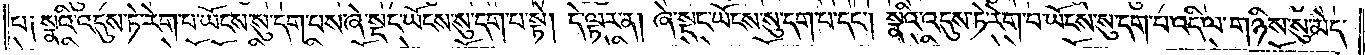པ༑ སྣའི་འདུས་ཏེ་རེག་པ་ཡོངས་སུ་དག་པས་ཞེ་སྡང་ཡོངས་སུ་དག་པ་སྟེ། དེ་ལྟར་ན། ཞེ་སྡང་ཡོངས་སུ་དག་པ་དང༌། སྣའི་འདུས་ཏེ་རེག་པ་ཡོངས་སུ་དག་པ་འདི་ལ་གཉིས་སུ་མེད་
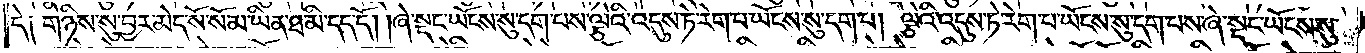དེ༑ གཉིས་སུ་བྱར་མེད་སོ་སོ་མ་ཡིན་ཐ་མི་དད་དོ། །ཞེ་སྡང་ཡོངས་སུ་དག་པས་ལྕེའི་འདུས་ཏེ་རེག་པ་ཡོངས་སུ་དག་པ། ལྕེའི་འདུས་ཏེ་རེག་པ་ཡོངས་སུ་དག་པས་ཞེ་སྡང་ཡོངས་སུ་
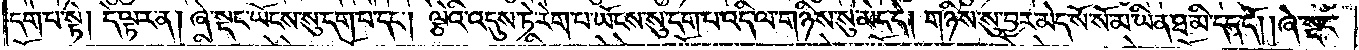དག་པ་སྟེ། དེ་ལྟར་ན། ཞེ་སྡང་ཡོངས་སུ་དག་པ་དང༌། ལྕེའི་འདུས་ཏེ་རེག་པ་ཡོངས་སུ་དག་པ་འདི་ལ་གཉིས་སུ་མེད་དེ། གཉིས་སུ་བྱར་མེད་སོ་སོ་མ་ཡིན་ཐ་མི་དད་དོ། །ཞེ་སྡང་
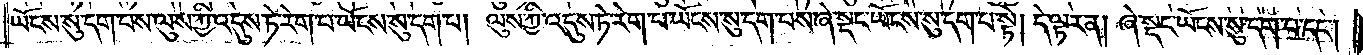ཡོངས་སུ་དག་པས་ལུས་ཀྱི་འདུས་ཏེ་རེག་པ་ཡོངས་སུ་དག་པ། ལུས་ཀྱི་འདུས་ཏེ་རེག་པ་ཡོངས་སུ་དག་པས་ཞེ་སྡང་ཡོངས་སུ་དག་པ་སྟེ། དེ་ལྟར་ན། ཞེ་སྡང་ཡོངས་སུ་དག་པ་དང༌།
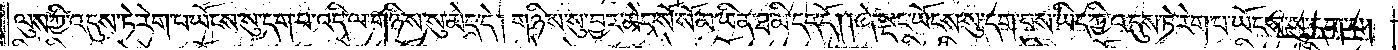ལུས་ཀྱི་འདུས་ཏེ་རེག་པ་ཡོངས་སུ་དག་པ་འདི་ལ་གཉིས་སུ་མེད་དེ། གཉིས་སུ་བྱར་མེད་སོ་སོ་མ་ཡིན་ཐ་མི་དད་དོ། །ཞེ་སྡང་ཡོངས་སུ་དག་པས་ཡིད་ཀྱི་འདུས་ཏེ་རེག་པ་ཡོངས་སུ་དག་པ།
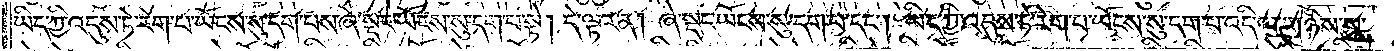ཡིད་ཀྱི་འདུས་ཏེ་རེག་པ་ཡོངས་སུ་དག་པས་ཞེ་སྡང་ཡོངས་སུ་དག་པ་སྟེ། དེ་ལྟར་ན། ཞེ་སྡང་ཡོངས་སུ་དག་པ་དང༌། ཡིད་ཀྱི་འདུས་ཏེ་རེག་པ་ཡོངས་སུ་དག་པ་འདི་ལ་གཉིས་སུ་
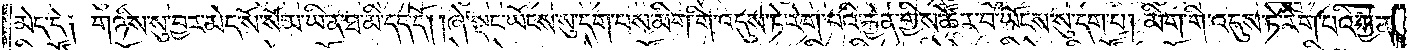མེད་དེ། གཉིས་སུ་བྱར་མེད་སོ་སོ་མ་ཡིན་ཐ་མི་དད་དོ། །ཞེ་སྡང་ཡོངས་སུ་དག་པས་མིག་གི་འདུས་ཏེ་རེག་པའི་རྐྱེན་གྱིས་ཚོར་བ་ཡོངས་སུ་དག་པ། མིག་གི་འདུས་ཏེ་རེག་པའི་རྐྱེན་
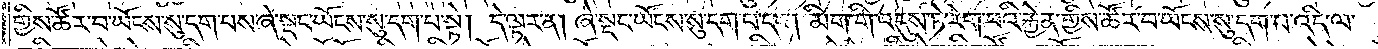གྱིས་ཚོར་བ་ཡོངས་སུ་དག་པས་ཞེ་སྡང་ཡོངས་སུ་དག་པ་སྟེ། དེ་ལྟར་ན། ཞེ་སྡང་ཡོངས་སུ་དག་པ་དང༌། མིག་གི་འདུས་ཏེ་རེག་པའི་རྐྱེན་གྱིས་ཚོར་བ་ཡོངས་སུ་དག་པ་འདི་ལ་
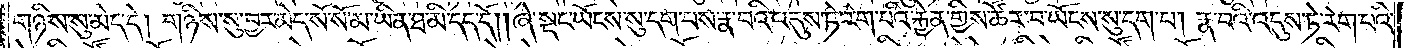གཉིས་སུ་མེད་དེ། གཉིས་སུ་བྱར་མེད་སོ་སོ་མ་ཡིན་ཐ་མི་དད་དོ། །ཞེ་སྡང་ཡོངས་སུ་དག་པས་རྣ་བའི་འདུས་ཏེ་རེག་པའི་རྐྱེན་གྱིས་ཚོར་བ་ཡོངས་སུ་དག་པ། རྣ་བའི་འདུས་ཏེ་རེག་པའི་
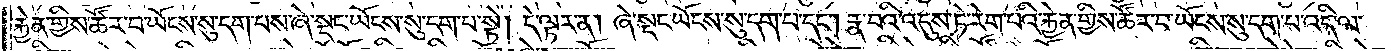རྐྱེན་གྱིས་ཚོར་བ་ཡོངས་སུ་དག་པས་ཞེ་སྡང་ཡོངས་སུ་དག་པ་སྟེ། དེ་ལྟར་ན། ཞེ་སྡང་ཡོངས་སུ་དག་པ་དང༌། རྣ་བའི་འདུས་ཏེ་རེག་རྐྱེན་གྱིས་ཚོར་བ་ཡོངས་སུ་དག་པ་འདི་ལ་
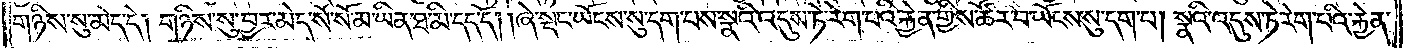གཉིས་སུ་མེད་དེ། གཉིས་སུ་བྱར་མེད་སོ་སོ་མ་ཡིན་ཐ་མི་དད་དོ། །ཞེ་སྡང་ཡོངས་སུ་དག་པས་སྣའི་འདུས་ཏེ་རེག་པའི་རྐྱེན་གྱིས་ཚོར་བ་ཡོངས་སུ་དག་པ། སྣའི་འདུས་ཏེ་རེག་པའི་རྐྱེན་
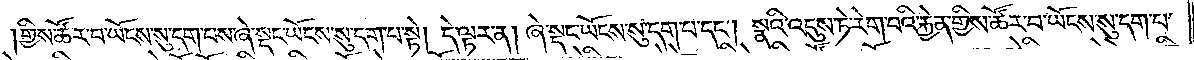གྱིས་ཚོར་བ་ཡོངས་སུ་དག་པས་ཞེ་སྡང་ཡོངས་སུ་དག་པ་སྟེ། དེ་ལྟར་ན། ཞེ་སྡང་ཡོངས་སུ་དག་པ་དང༌། སྣའི་འདུས་ཏེ་རེག་པའི་རྐྱེན་གྱིས་ཚོར་བ་ཡོངས་སུ་དག་པ་
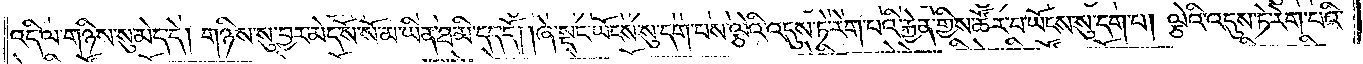འདི་ལ་གཉིས་སུ་མེད་དེ། གཉིས་སུ་བྱར་མེད་སོ་སོ་མ་ཡིན་ཐ་མི་དད་དོ། །ཞེ་སྡང་ཡོངས་སུ་དག་པས་ལྕེའི་འདུས་ཏེ་རེག་པའི་རྐྱེན་གྱིས་ཚོར་བ་ཡོངས་སུ་དག་པ། ལྕེའི་འདུས་ཏེ་རེག་པའི་
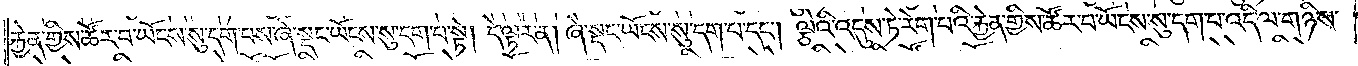རྐྱེན་གྱིས་ཚོར་བ་ཡོངས་སུ་དག་པས་ཞེ་སྡང་ཡོངས་སུ་དག་པ་སྟེ། དེ་ལྟར་ན། ཞེ་སྡང་ཡོངས་སུ་དག་པ་དང༌། ལྕེའི་འདུས་ཏེ་རེག་པའི་རྐྱེན་གྱིས་ཚོར་བ་ཡོངས་སུ་དག་པ་འདི་ལ་གཉིས་
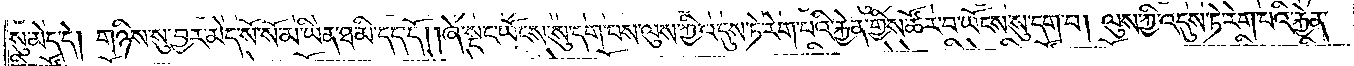སུ་མེད་དེ། གཉིས་སུ་བྱར་མེད་སོ་སོ་མ་ཡིན་ཐ་མི་དད་དོ། །ཞེ་སྡང་ཡོངས་སུ་དག་པས་ལུས་ཀྱི་འདུས་ཏེ་རེག་པའི་རྐྱེན་གྱིས་ཚོར་བ་ཡོངས་སུ་དག་པ། ལུས་ཀྱི་འདུས་ཏེ་རེག་པའི་རྐྱེན་
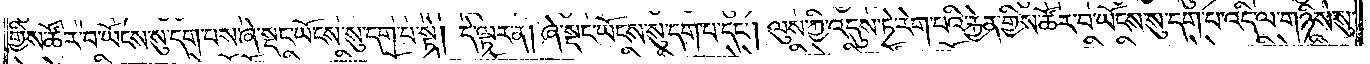གྱིས་ཚོར་བ་ཡོངས་སུ་དག་པས་ཞེ་སྡང་ཡོངས་སུ་དག་པ་སྟེ། དེ་ལྟར་ན། ཞེ་སྡང་ཡོངས་སུ་དག་པ་དང༌། ལུས་ཀྱི་འདུས་ཏེ་རེག་པའི་རྐྱེན་གྱིས་ཚོར་བ་ཡོངས་སུ་དག་པ་འདི་ལ་གཉིས་སུ་
